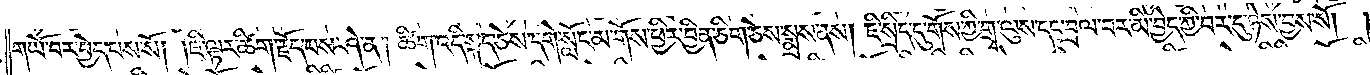གཡོ་བར་བྱེད་པས་སོ། །ཇི་ལྟར་ཚིག་རྗོད་པས་ཤེ་ན། ཚིག་འདི་སྐད་ཅེས་དགེ་སློང་མ་གོས་ཕྱིར་བྱིན་ཅིག་ཅེས་སྨྲས་ནས། ཇི་སྲིད་དུ་གོས་ཀྱི་གྲྭ་ལུས་དང་བྲལ་བར་མི་བྱེད་ཀྱི་བར་དུ་ཉེས་བྱས་སོ། །
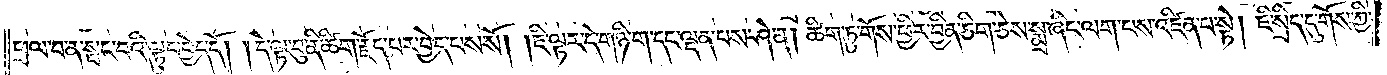ཕྲལ་བ་ན་སྤང་བའི་ལྟུང་བྱེད་དོ། །དེ་ལྟ་བུ་ནི་ཚིག་རྗོད་པར་བྱེད་པས་སོ། །ཇི་ལྟར་དེ་གཉི་ག་དང་ལྡན་པས་ཤེ་ན། ཚིག་ཏུ་གོས་ཕྱིར་བྱིན་ཅིག་ཅེས་སྨྲ་ཞིང་ལག་པས་འཛིན་པ་སྟེ། ཇི་སྲིད་དུ་གོས་ཀྱི་
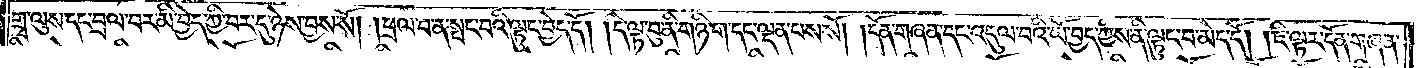གྲྭ་ལུས་དང་བྲལ་བར་མི་བྱེད་ཀྱི་བར་དུ་ཉེས་བྱས་སོ། །ཕྲལ་བ་ན་སྤང་བའི་ལྟུང་བྱེད་དོ། །དེ་ལྟ་བུ་ནི་གཉི་ག་དང་ལྡན་པས་སོ། །དོན་གཞན་དང་འདུལ་བའི་ཡོ་བྱད་ཀྱིས་ནི་ལྟུང་བ་མེད་དོ། །ཇི་ལྟར་དོན་གཞན་
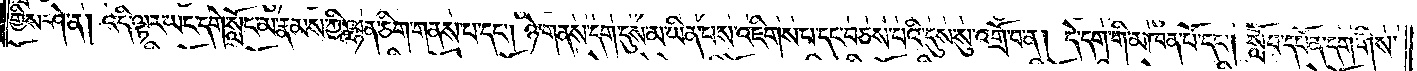གྱིས་ཤེ་ན། འདི་ལྟར་ཡང་དགེ་སློང་མ་རྣམས་ཀྱི་ལྷན་ཅིག་གནས་པ་དང༌། ཉེ་གནས་དག་དུས་མ་ཡིན་པས་འཇིགས་པ་དང་བཅས་པའི་དུས་སུ་འགྲོ་བ་ན། དེ་དག་གི་མཁན་པོ་དང༌། སློབ་དཔོན་དག་གིས་
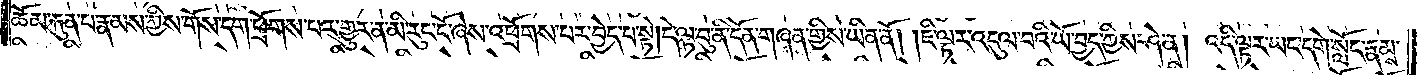ཆོམ་རྐུན་པ་རྣམས་ཀྱིས་གོས་དག་ཕྲོགས་པར་གྱུར་ན་མི་རུང་ངོ་ཞེས་འཕྲོགས་པར་བྱེད་པ་སྟེ། དེ་ལྟ་བུ་ནི་དོན་གཞན་གྱིས་ཡིན་ནོ། །ཇི་ལྟར་འདུལ་བའི་ཡོ་བྱད་ཀྱིས་ཤེ་ན། འདི་ལྟར་ཡང་དགེ་སློང་རྣམས་
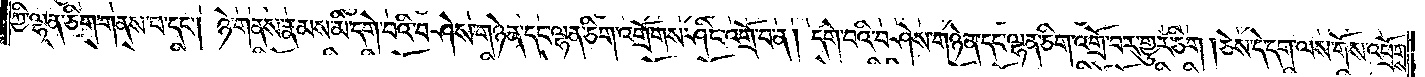ཀྱི་ལྷན་ཅིག་གནས་པ་དང༌། ཉེ་གནས་རྣམས་མི་དགེ་བའི་བཤེས་གཉེན་དང་ལྷན་ཅིག་འགྲོགས་ཤིང་འགྲོ་བ་ན། དགེ་བའི་བཤེས་གཉེན་དང་ལྷན་ཅིག་འགྲོ་བར་གྱུར་ཅིག །ཅེས་དེ་དག་ལས་གོས་འཕྲོགས་
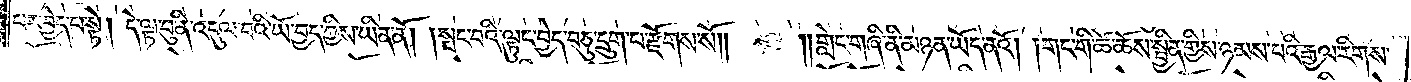པར་བྱེད་པ་སྟེ། དེ་ལྟ་བུ་ནི་འདུལ་བའི་ཡོ་བྱད་ཀྱིས་ཡིན་ནོ། །སྤང་བའི་ལྟུང་བྱེད་བཅུ་དྲུག་པ་རྫོགས་སོ༎  ༎གླེང་གཞི་ནི་མཉན་ཡོད་ནའོ། །གང་གི་ཚེ་ཆོས་སྦྱིན་གྱིས་ཉམས་པའི་རྒྱལ་རིགས་
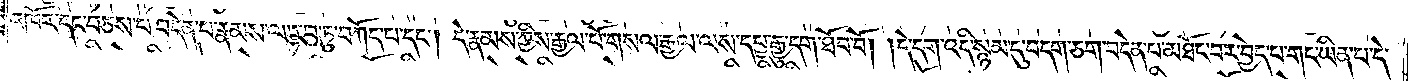འཁོར་དང་བཅས་པ་བདེན་པ་རྣམས་ལ་རབ་ཏུ་བཀོད་པ་དང༌། དེ་རྣམས་ཀྱིས་རྒྱལ་པོ་གསལ་རྒྱལ་ལས་དཔྱ་རྒྱུ་དག་ཐོབ་བོ། །དེ་དག་འདི་སྙམ་དུ་བདག་ཅག་བདེན་པ་མཐོང་བར་བྱེད་པ་གང་ཡིན་པ་དེ་
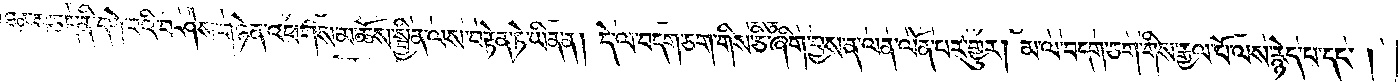ཐམས་ཅད་ནི་དགེ་བའི་བཤེས་གཉེན་འཕགས་མ་ཆོས་སྦྱིན་ལས་བརྟེན་ཏེ་ཡིན་ན། དེ་ལ་བདག་ཅག་གིས་ཅི་ཞིག་བྱས་ན་ལན་ལོན་པར་གྱུར། མ་ལ་བདག་ཅག་གིས་རྒྱལ་པོ་ལས་རྙེད་པ་དང༌།
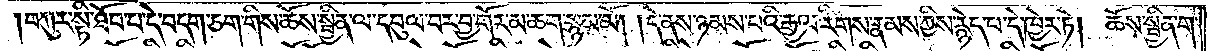བཀུར་སྟི་ཐོབ་པ་དེ་བདག་ཅག་གིས་ཆོས་སྦྱིན་ལ་དབུལ་བར་བྱ་གོར་མ་ཆག་སྙམ་མོ། །དེ་ནས་ཉམས་པའི་རྒྱལ་རིགས་རྣམས་ཀྱིས་རྙེད་པ་དེ་ཁྱེར་ཏེ། ཆོས་སྦྱིན་ག་
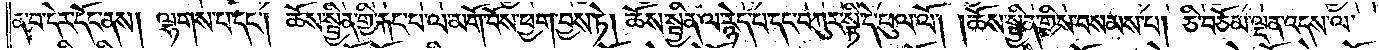ན་བ་དེར་དོང་ནས། ལྷགས་པ་དང༌། ཆོས་སྦྱིན་གྱི་རྐང་པ་ལ་མགོ་བོས་ཕྱག་བྱས་ཏེ། ཆོས་སྦྱིན་ལ་རྙེད་པ་དང་བཀུར་སྟི་དེ་ཕུལ་ལོ། །ཆོས་སྦྱིན་གྱིས་བསམས་པ། ཅི་བཅོམ་ལྡན་འདས་ལ་
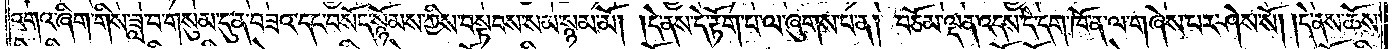འགའ་ཞིག་གིས་ཟླ་བ་གསུམ་དུ་ན་བཟའ་དང་བསོད་སྙོམས་ཀྱིས་བསྟབས་སམ་སྙམ་མོ། །དེ་ནས་དེ་རྟོག་པ་ལ་ཞུགས་པ་ན། བཅོམ་ལྡན་འདས་དེ་དག་ཁོ་ན་ལ་གཞེས་པར་ཤེས་སོ། །དེ་ནས་ཆོས་
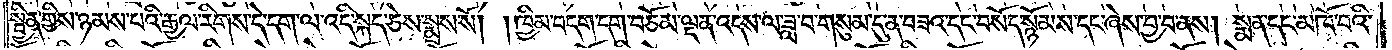སྦྱིན་གྱིས་ཉམས་པའི་རྒྱལ་རིགས་དེ་དག་ལ་འདི་སྐད་ཅེས་སྨྲས་སོ། །ཁྱིམ་བདག་དག་བཅོམ་ལྡན་འདས་ལ་ཟླ་བ་གསུམ་དུ་ན་བཟའ་དང་བསོད་སྙོམས་དང་ཞེས་བྱ་བ་ནས། སྨན་དང་མཁོ་བའི་
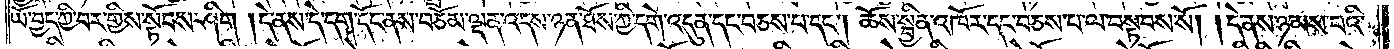ཡོ་བྱད་ཀྱི་བར་གྱིས་སྟོབས་ཤིག །དེ་ནས་དེ་དག་དོང་ནས་བཅོམ་ལྡན་འདས་ཉན་ཐོས་ཀྱི་དགེ་འདུན་དང་བཅས་པ་དང༌། ཆོས་སྦྱིན་འཁོར་དང་བཅས་པ་ལ་བསྟབས་སོ། །དེ་ནས་ཉམས་པའི་
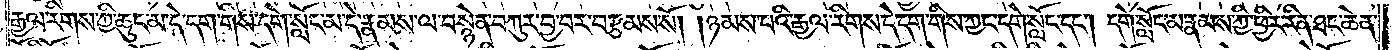རྒྱལ་རིགས་ཀྱི་ཆུང་མ་དེ་དག་གིས་དགེ་སློང་མ་དེ་རྣམས་ལ་བསྙེན་བཀུར་བྱ་བར་བརྩམས་སོ། །ཉམས་པའི་རྒྱལ་རིགས་དེ་དག་གིས་ཀྱང་དགེ་སློང་དང༌། དགེ་སློང་མ་རྣམས་ཀྱི་ཕྱིར་རིན་ཐང་ཆེན་
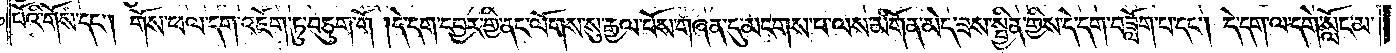པོའི་གོས་དང༌། གོས་ཕལ་དག་འཇོག་ཏུ་བཅུག་གོ །དེ་དག་དབྱར་གྱི་ནང་ལོགས་སུ་རྒྱལ་པོས་གཞན་དུ་མངགས་པ་ལས་མགོན་མེད་ཟས་སྦྱིན་གྱིས་དེ་དག་བཟློག་པ་དང༌། དེ་དག་ལ་དགེ་སློང་མ་
